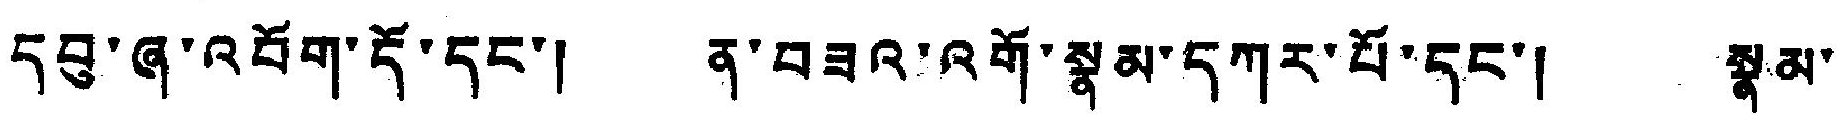དབུ་ཞ་འབོག་དོ་དང་། ན་བཟའ་འགོ་སྣམ་དཀར་པོ་དང་། སྣམ་
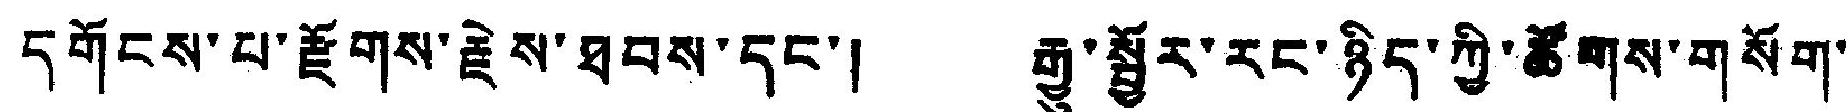དགོངས་པ་རྫོགས་རྗེས་ཐབས་དང་། རྒྱུ་སྦྱོར་རང་ཉིད་ཀྱི་ཚོགས་གསོག་
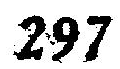297
